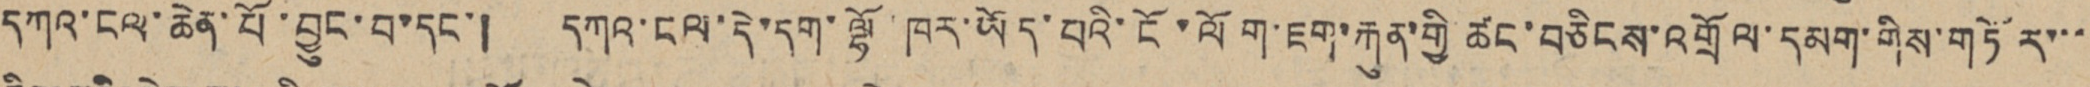དཀའ་ངལ་ཆེན་པོ་བྱུང་བ་དང་། དཀའ་ངལ་དེ་དག་ལྷོ་ཁར་ཡོད་པའི་ངོ་ལོག་ཇག་རྐུན་གྱི ཚང་བཅིངས་འགྲོལ་དམག་གིས་གཏོར་་་
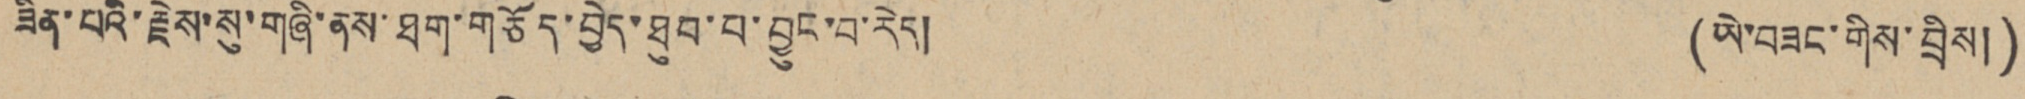ཟིན་པའི་རྗེས་སུ་གཞི་ནས་ཐག་གཅོད་བྱེད་ཐུབ་པ་བྱུང་བ་རེད། (ཡེ་བཟང་གིས་བྲིས།)
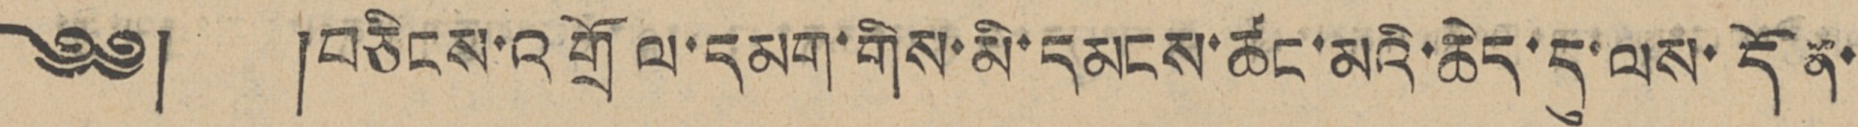༄༅། །བཅིངས་འགྲོལ་དམག་གིས་མི་དམངས་ཚང་མའི་ཆེར་དུ་ལས་དོན་
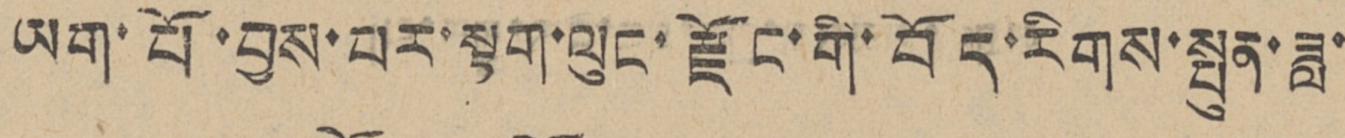ཡག་པོ་བྱས་པར་སྟག་ལུང་རྫོང་གི་བོད་རིགས་སྤུན་ཟླ་
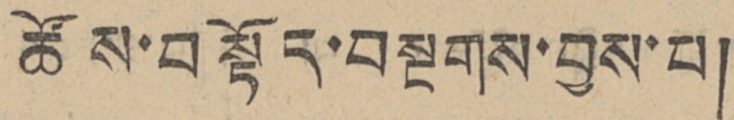ཚོས་བསྟོད་བསྔགས་བྱས་པ།
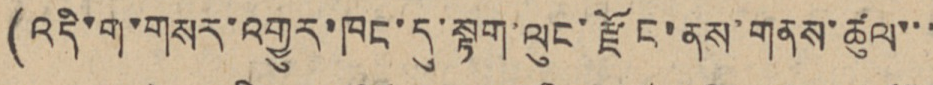(འདི་ག་གསར་འགྱུར་ཁང་དུ་སྟག་ལུང་རྫོང་ནས་གནས་ཚུལ་་་
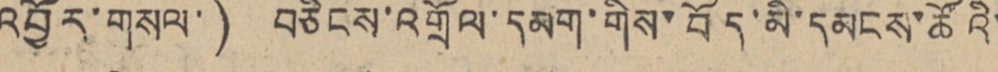འབྱོར་གསལ་) བཅིངས་འགྲོལ་དམག་གིས་བོད་མི་དམངས་ཚོའི་
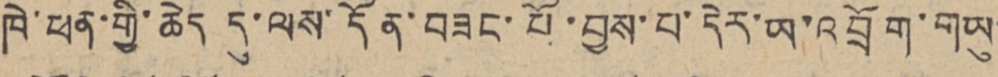ཁེ་ཕན་གྱི་ཆེད དུ་ལས་དོན་བཟང་པོ་བྱས་པ་དེར་ཡ་འབྲོག་གཡུ་
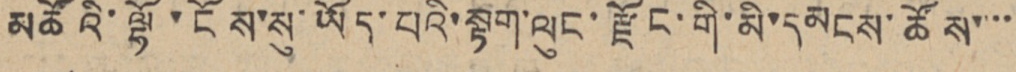མཚོའི་ལྷོ་ངོས་སུ་ཡོད་པའི་སྟག་ལུང་རྫོང་གི་མི་དམངས་ཚོས་་་་
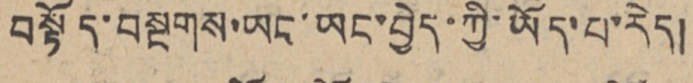བསྟོད་བསྔགས་ཡང་ཡང་བྱེད་ཀྱི་ཡོད་པ་རེད།
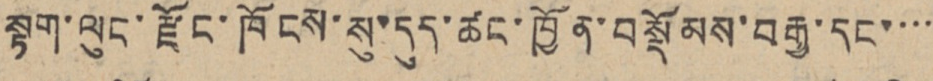སྟག་ལུང་རྫོང་ཁོངས་སུ་དུད་ཚང་ཁྱོན་བསྡོམས་བརྒྱ་དང་་་་
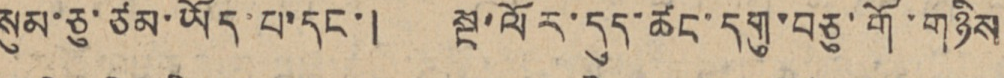སུམ་ཅུ་ཙམ་ཡོད་པ་དང་། སྔ་ལོར་དུད་ཚང་དགུ་བཅུ་གོ་གཉིས
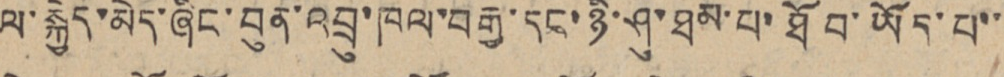ལ་སྐྱེད་མེད་ཞིང་བུན་འབྲུ་ཁལ་བརྒྱ་དང་ཉི་ཤུ་ཐམ་པ་ཐོབ་ཡོད་པ་་
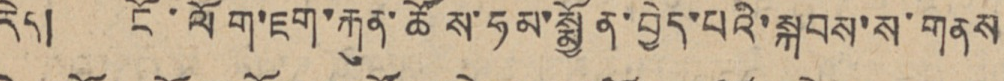རེད། ངོ་ལོག་ཇག་རྐུན་ཚོས་ཧམ་སྨྱོན་བྱེད་པའི་སྐབས་ས་གནས
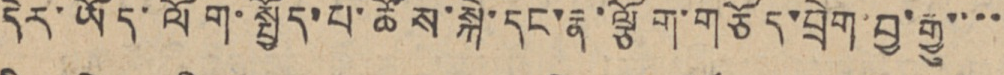དེར་ཡོད་ལོག་སྤྱོད་པ་ཚོས་སྐེ་དང་རྣ་ལྕོག་གཅོད་བྲེག་བྱ་རྒྱུ་་་་
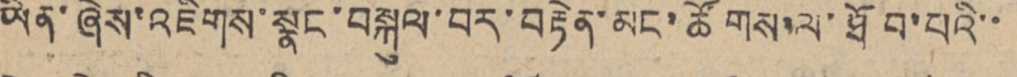ཡིན་ཞེས་འཇིགས་སྣང་བསྐུལ་བར་བརྟེན་མང་ཚོགས་ལ་ཐོབ་པའི་་
